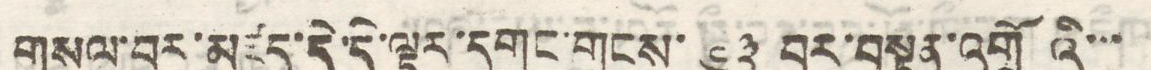གསལ་བར་མཛད་དེ་དེ་ལྟར་དགུང་གྲངས་ ༦༣ བར་བསྟན་འགྲོའི་་་
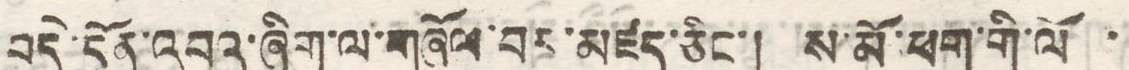བདེ་དོན་འབའ་ཞིག་ལ་གཞོལ་བར་མཛད་ཅིང་། ས་མོ་ཕག་གི་ལོ་
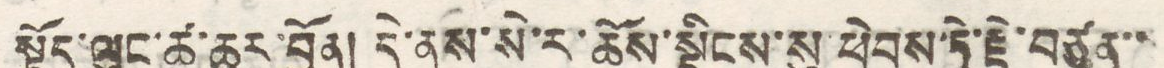སྟོད་ལུང་ཚ་ཆུར་བྱོན། དེ་ནས་སེ་ར་ཆོས་སྡིངས་སུ་ཕེབས་ཏེ་རྗེ་བཙུན་་
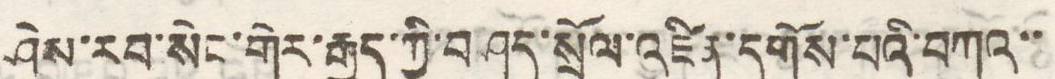ཤེས་རབ་སེང་གེར་རྒྱུད་ཀྱི་བཤད་སྲོལ་འཛིན་དགོས་པའི་བཀའ་་
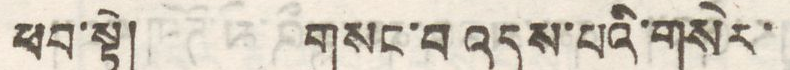ཕབ་སྟེ། གསང་བ འདུལ་པའི་གསེར་
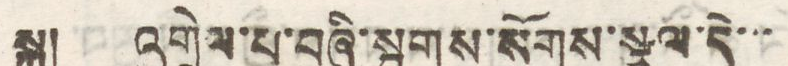སྐུ། འགྲེལ་པ་བཞི་སྦྲགས་སོགས་སྩལ་དེ་་་
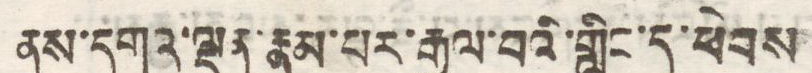ནས་དགའ་ལྡན་རྣམ་པར་རྒྱལ་བའི་གླིང་དུ་ཕེབས
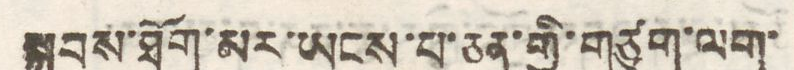སྐབས་ཐོག་མར་ཡངས་པ་ཅན་གྱི་གཙུག་ལག་
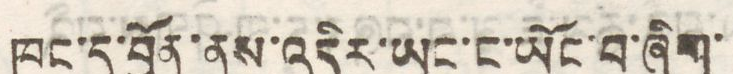ཁང་དུ་བྱོན་ནས་འདིར་ཡང་ང་ཡོང་བ་ཞིག་
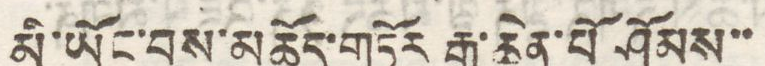མི་ཡོང་བས་མཆོད་གཏོར རྒྱ་ཆེན་པོ ཤོམས་་
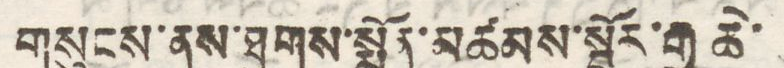གསུངས་ནས་ཐུགས་སྨོན་མཚམས་སྦྱོར་རྒྱ ཆེ་
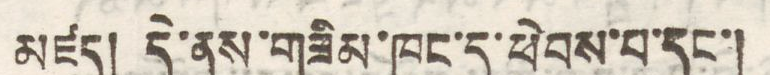མཛད། དེ་ནས་གཟིམ་ཁང་དུ་ཕེབས་པ་དང་།
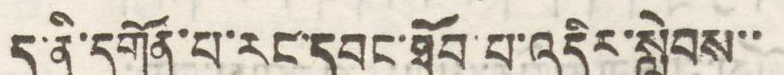ད་ནི་དགོན་པ་རང་དབང་ཐོབ་པ་འདིར་སླེབས་་
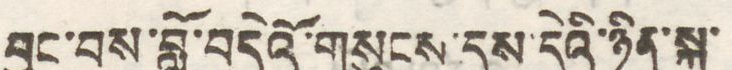བྱུང་བས་བློ་བདེའོ་གསུངས་དུས་དེའི་ཉིན་སྐུ་
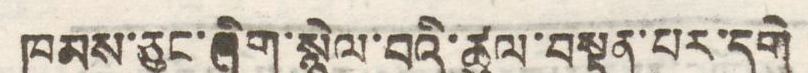ཁམས་ཅུང་ཞིག་སྙེལ་བའི་ཚུལ་བསྟན་པར་དགེ
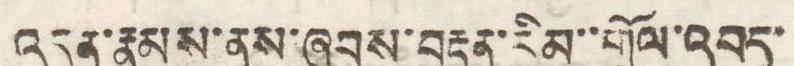འདུན་རྣམས་ནས་ཞབས་བརྟན་རིམ་་གྲོལ་འབད་
